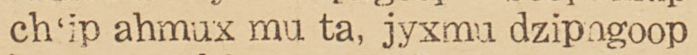ch'ip ahmux mu ta, jyxmu dzipngoop
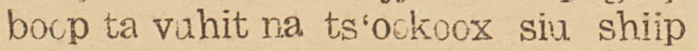boop ta vuhit na ts'ookoox siu shiip
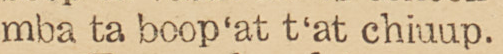mba ta boop'at t'at chiuup.
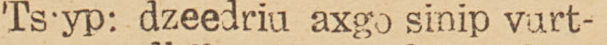Ts'yp: dzeedriu axgo sinip vurt-
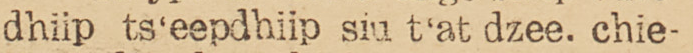dhiip ts'eepdhiip siu t'at dzee. chie-
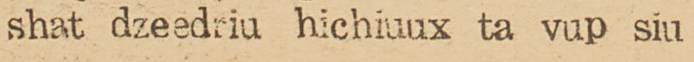shat dzeedriu hichiuux ta vup siu
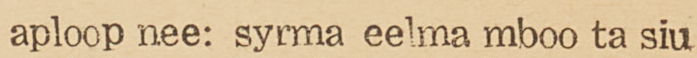aploop nee: syrma eelma mboo ta siu
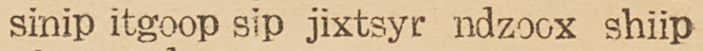sinip itgoop sip jixtsyr ndzoox shiip
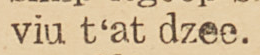viu t'at dzee.
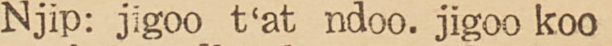Njip: jigoo t'at ndoo. jigoo koo
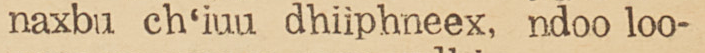naxbu ch'iuu dhiiphneex, ndoo loo-
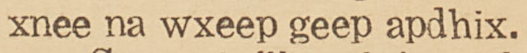xnee na wxeep geep apdhix.
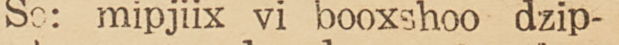So: mipjiix vi booxshoo dzip-
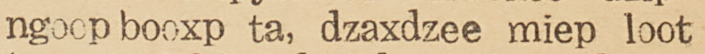ngoop booxp ta, dzaxdzee miep loot
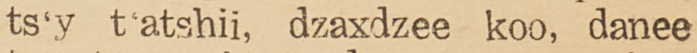ts'y t'atshii, dzaxdzee koo, danee
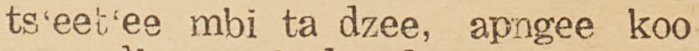ts'eet'ee mbi ta dzee, apngee koo
